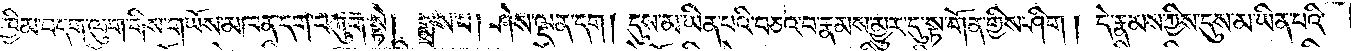དེ་ནས་ཁྱིམ་བདག་ལུག་གིས་གཡོས་མཁན་དག་བཀུག་སྟེ། སྨྲས་པ། ཤེས་ལྡན་དག །དུས་མ་ཡིན་པའི་བཅའ་བ་རྣམས་མྱུར་དུ་སྟ་གོན་གྱིས་ཤིག །དེ་རྣམས་ཀྱིས་དུས་མ་ཡིན་པའི་
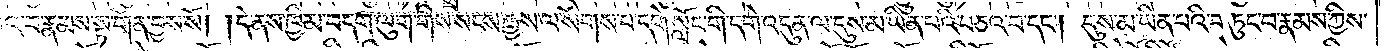བཅའ་བ་རྣམས་སྟ་གོན་བྱས་སོ། །དེ་ནས་ཁྱིམ་བདག་ལུག་གིས་སངས་རྒྱས་ལ་སོགས་པ་དགེ་སློང་གི་དགེ་འདུན་ལ་དུས་མ་ཡིན་པའི་བཅའ་བ་དང༌། དུས་མ་ཡིན་པའི་བཏུང་བ་རྣམས་ཀྱིས་
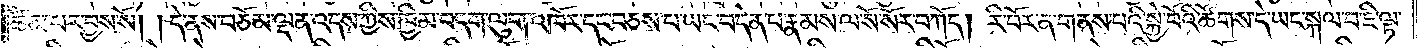ཚིམ་པར་བྱས་སོ། །དེ་ནས་བཅོམ་ལྡན་འདས་ཀྱིས་ཁྱིམ་བདག་ལུག་འཁོར་དང་བཅས་པ་ཡང་བདེན་པ་རྣམས་ལ་སོ་སོར་བཀོད། རི་བོར་ན་གནས་པའི་སྐྱེ་བོའི་ཚོགས་དེ་ཡང་སྐལ་བ་ཇི་ལྟ་
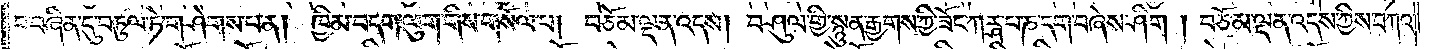བ་བཞིན་དུ་བཏུལ་ཏེ་གཤེགས་པ་ན། ཁྱིམ་བདག་ལུག་གིས་གསོལ་པ། བཅོམ་ལྡན་འདས། བཤུལ་གྱི་སྙུན་རྒྱགས་ཀྱི་ཟོང་ཀཪྴ་པ་ཎ་དག་བཞེས་ཤིག །བཅོམ་ལྡན་འདས་ཀྱིས་བཀའ་
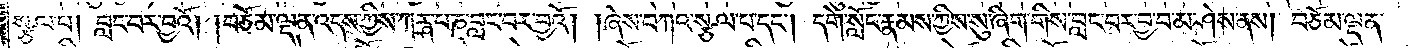སྩལ་པ། བླང་བར་བྱའོ། །བཅོམ་ལྡན་འདས་ཀྱིས་ཀཪྴ་པ་ཎ་བླང་བར་བྱའོ། །ཞེས་བཀའ་སྩལ་པ་དང༌། དགེ་སློང་རྣམས་ཀྱིས་སུ་ཞིག་གིས་བླང་བར་བྱ་བ་མ་ཤེས་ནས། བཅོམ་ལྡན་
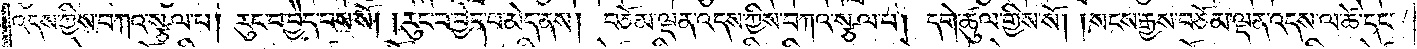འདས་ཀྱིས་བཀའ་སྩལ་པ། རུང་བ་བྱེད་པས་སོ། །རུང་བ་བྱེད་པ་མེད་ནས། བཅོམ་ལྡན་འདས་ཀྱིས་བཀའ་སྩལ་པ། དགེ་ཚུལ་གྱིས་སོ། །སངས་རྒྱས་བཅོམ་ལྡན་འདས་ལ་ཚེ་དང་
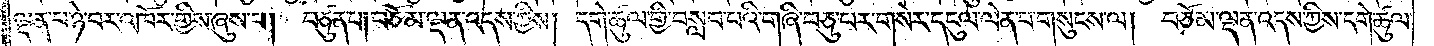ལྡན་པ་ཉེ་བར་འཁོར་གྱིས་ཞུས་པ། བཙུན་པ། བཅོམ་ལྡན་འདས་ཀྱིས། དགེ་ཚུལ་གྱི་བསླབ་པའི་གཞི་བཅུ་པར་གསེར་དངུལ་ལེན་པ་གསུངས་ལ། བཅོམ་ལྡན་འདས་ཀྱིས་དགེ་ཚུལ་
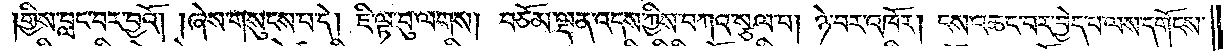།གྱིས་བླང་བར་བྱའོ། །ཞེས་གསུངས་པ་དེ། ཇི་ལྟ་བུ་ལགས། བཅོམ་ལྡན་འདས་ཀྱིས་བཀའ་སྩལ་པ། ཉེ་བར་འཁོར། ངས་འཆང་བར་བྱེད་པ་ལས་དགོངས་
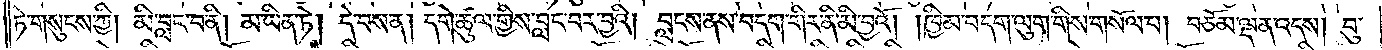ཏེ་གསུངས་ཀྱི། མི་བླང་བ་ནི། མ་ཡིན་ཏེ། དེ་བས་ན། དགེ་ཚུལ་གྱིས་བླང་བར་བྱའི། བླངས་ནས་བདག་གིར་ནི་མི་བྱའོ། །ཁྱིམ་བདག་ལུག་གིས་གསོལ་བ། བཅོམ་ལྡན་འདས། བུ་
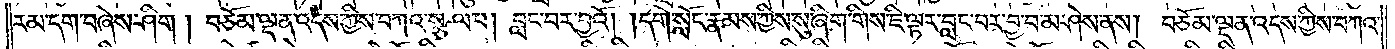རམ་དག་བཞེས་ཤིག །བཅོམ་ལྡན་འདས་ཀྱིས་བཀའ་སྩལ་པ། བླང་བར་བྱའོ། །དགེ་སློང་རྣམས་ཀྱིས་སུ་ཞིག་གིས་ཇི་ལྟར་བླང་བར་བྱ་བ་མ་ཤེས་ནས། བཅོམ་ལྡན་འདས་ཀྱིས་བཀའ་
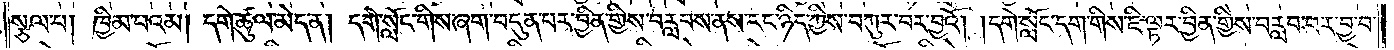སྩལ་པ། ཁྱིམ་པའམ། དགེ་ཚུལ་མེད་ན། དགེ་སློང་གིས་ཞག་བདུན་པར་བྱིན་གྱིས་བརླབས་ནས་རང་ཉིད་ཀྱིས་བཀུར་བར་བྱའོ། །དགེ་སློང་དག་གིས་ཇི་ལྟར་བྱིན་གྱིས་བརླབ་པར་བྱ་བ་
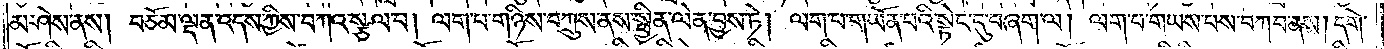མ་ཤེས་ནས། བཅོམ་ལྡན་འདས་ཀྱིས་བཀའ་སྩལ་པ། ལག་པ་གཉིས་བཀྲུས་ནས་སྦྱིན་ལེན་བྱས་ཏེ། ལག་པ་གཡོན་པའི་སྟེང་དུ་བཞག་ལ། ལག་པ་གཡས་པས་བཀབ་ནས། དགེ་
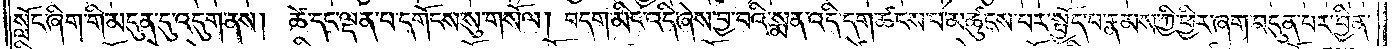སློང་ཞིག་གི་མདུན་དུ་འདུག་ནས། ཚེ་དང་ལྡན་པ་དགོངས་སུ་གསོལ། བདག་མིང་འདི་ཞེས་བྱ་བའི་སྨན་འདི་དག་ཚངས་པར་མཚུངས་པར་སྤྱོད་པ་རྣམས་ཀྱི་ཕྱིར་ཞག་བདུན་པར་བྱིན་
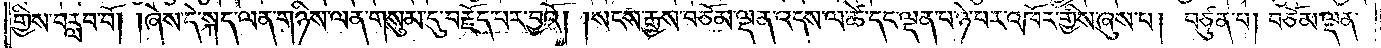གྱིས་བརླབ་བོ། །ཞེས་དེ་སྐད་ལན་གཉིས་ལན་གསུམ་དུ་བརྗོད་པར་བྱའོ། །སངས་རྒྱས་བཅོམ་ལྡན་འདས་ལ་ཚེ་དང་ལྡན་པ་ཉེ་བར་འཁོར་གྱིས་ཞུས་པ། བཙུན་པ། བཅོམ་ལྡན་
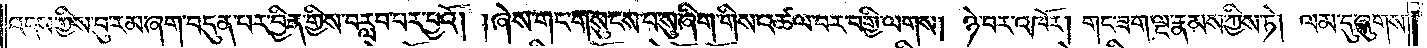འདས་ཀྱིས་བུ་རམ་ཞག་བདུན་པར་བྱིན་གྱིས་བརླབ་པར་བྱའོ། །ཞེས་གང་གསུངས་པ་སུ་ཞིག་གིས་འཚལ་བར་བགྱི་ལགས། ཉེ་བར་འཁོར། གང་ཟག་ལྔ་རྣམས་ཀྱིས་ཏེ། ལམ་དུ་ཞུགས་
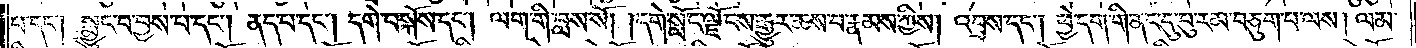པ་དང༌། སྨྱུང་བ་བྱས་པ་དང༌། ནད་པ་དང༌། དགེ་བསྐོས་དང༌། ལག་གི་བླས་སོ། །དགེ་སློང་ལྗོངས་རྒྱུར་ཆས་པ་རྣམས་ཀྱིས། འབྲས་དང༌། ཕྱེ་དག་གི་ནང་དུ་བུ་རམ་བཅུག་པ་ལས། ལམ་
